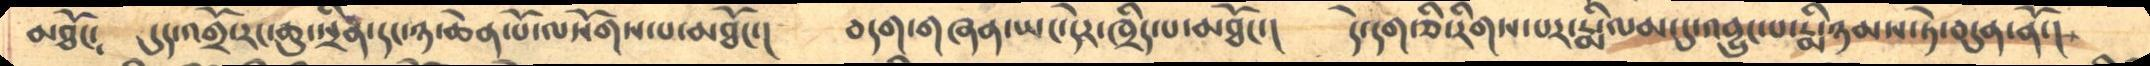མཐོང༴    དུད་འགྲོ་རང་ཆུ་སྲིན་དང་ཉ་ཆེན་པོ་ལསོགས་པ་མཐོང་།་   བདག་གཞན་ཡང་དེར་ཁྲིད་པ་མཐོང་།   དེ་དག་ཅི་རིགས་པར་རྨི་ལམ་དུ་འབྱུང་པ་རྨི་ཉམས་ཏེ་བདུན་ནོ་།
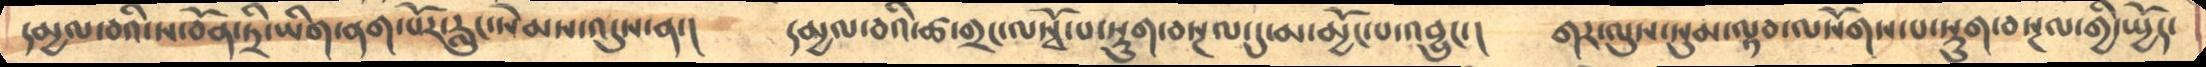དམྱལ་བའི་ས་བོན་ཏྲི་ཡིག་ནག་པོར་རླུང་སེམས་འདུས་ན་།    དམྱལ་བའི་ཚ་གྲང་ལསྭོ་པ་སྡུག་བསྔལ་དུ་མ་མྱོང་པ་འབྱུང་།   གར་ལུས་སུམ་ལྟབ་ལསོགས་པ་སྡུག་བསྔལ་གྱི་སྤྱོད་
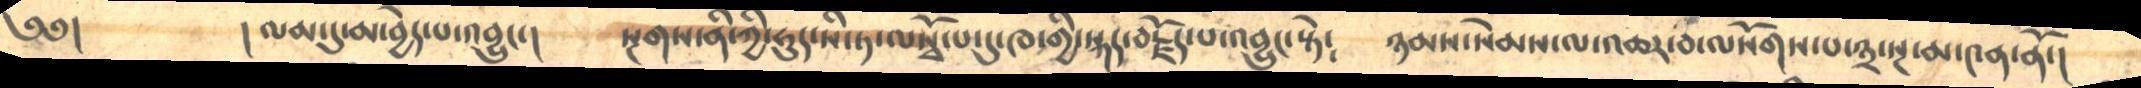༄༅།           ། ལམ་དུ་མ་བྱེད་པ་འབྱུང་།       སྔགས་ནི་ཀྱི་ཧུད་སི་ཏ་ལསྭོ་པ་དུ་ཁ་གྱི་སྐད་བརྗོད་པ་འབྱུང་སྟེ༴   ཉམས་སེམས་ལ་འཆར་བ་ལསོགས་པ་༣་སྔ་མ་༤ན་ནོ་།
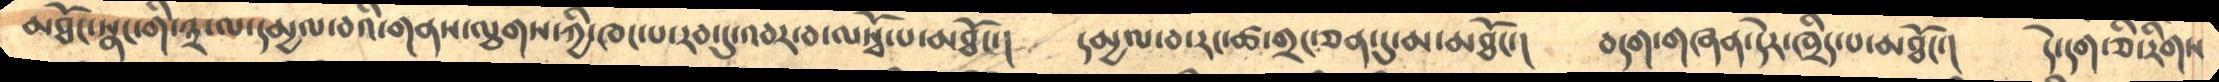མཐོང་སྣང་གི་༣་ལ་དམྱལ་བའི་གནས་ལྕགས་ཀྱི་ཁང་པ་རབ་དུ་འབར་བ་ལསྭོ་པ་མཐོང་།    དམྱལ་བ་རང་ཚ་གྲང་ཅན་དུ་མ་མཐོང་།  བདག་གཞན་དེར་ཁྲིད་པ་མཐོང་།  དེ་དག་ཅི་རིགས
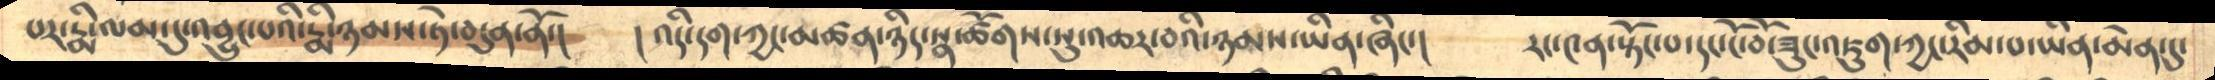པར་རྨི་ལམ་དུ་འབྱུང་པའི་རྨི་ཉམས་ཏེ་བདུན་ནོ་།    ། འདི་དག་ཀྱང་མཚན་ཉིད་སྣ་ཚོགས་སུ་འཆར་བའི་ཉམས་ཡིན་ཞིང་།    རང་༤ན་སྟོང་པ་དང་ངོ་བོ་ཟུང་འཇུག་ཀྱང་རིམ་པ་ཡིན་མེན་དུ་
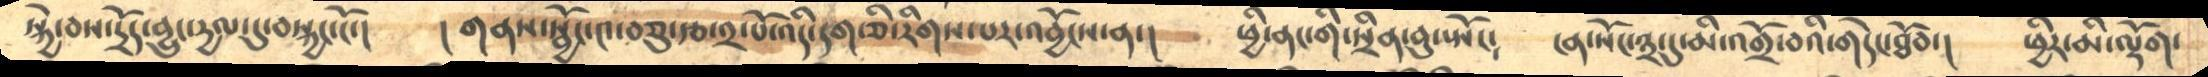སྐྱེ་བས་དྲོད་བྱུང་དྱལ་དུ་བསྐྱང་ངོ་།    ། གནས་སྦྱོང་༤་བཅུ་རྩ་༢་པོ་འདི་དག་ཅི་རིགས་པར་འབྱོངས་ན་།    ཕྱི་ནང་གི་སྲིན་བུ་སྤོང༴    ངན་སོང་༣་དུ་ནི་འགྲོ་བའི་གདེང་ཐོབ་།   ཕྱིར་མི་ལྡོག་
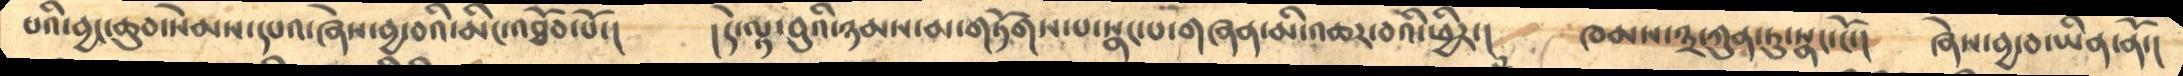པའི་བྱང་ཆུབ་སེམས་དཔའ་ཞེས་བྱ་བའི་མིང་འཐོབ་པོ་།     །དེ་ལྟ་བུའི་ཉམས་མ་གཏོགས་པ་སྣང་པ་གཞན་མི་འཆར་བའི་ཕྱིར་།    ཁམས་༣་ཀུན་ཏུ་སྣང་ངོ་།     ཞེས་བྱ་བ་ཡིན་ནོ་།
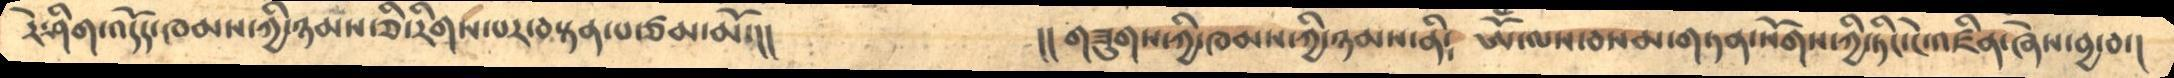རེ་ཤིག་འདོད་ཁམས་ཀྱི་ཉམས་ཅི་རིགས་པར་བསྟན་པ་ཙམ་མོ་།།             །། གཟུགས་ཀྱི་ཁམས་ཀྱི་ཉམས་ནི༴    ཨོྃ་ལས་བསམ་གཏན་སོགས་ཀྱི་ཏིང་ངེ་འཛིན་ཞེས་བྱ་བ་།
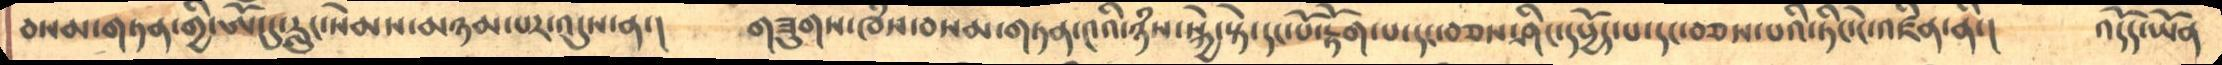བསམ་གཏན་གྱི་ཨོཾ་དུ་རླུང་སེམས་མཉམ་པར་འདུས་ན་།    གཟུགས་ཁྃས་བསམ་གཏན་༤འི་ཉཾས་སྐྱེ་སྟེ་དང་པོ་རྟོག་པ་དང་བཅས་ཤིང་དཔྱོད་པ་དང་བཅས་པའི་ཏིང་ངེ་འཛིན་ནི་།   འདོད་ཡོན
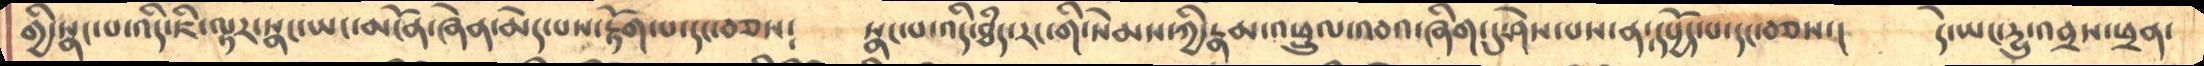ཀྱི་སྣང་པ་འདི་ཇི་ལྟར་སྣང་ཡང་མངོན་ཞེན་མེད་པས་རྟོག་པ་དང་བཅས༴    སྣང་པ་འདི་ཐྃད་རང་གི་སེམས་ཀྱི་རྣམ་འཕྲུལ་འབའ་ཞིག་དུ་ཤེས་པས་ན་དཔྱོད་པ་དང་བཅས་།   དེ་ཡང་དྱུ་འབྲས་ཕྲན་
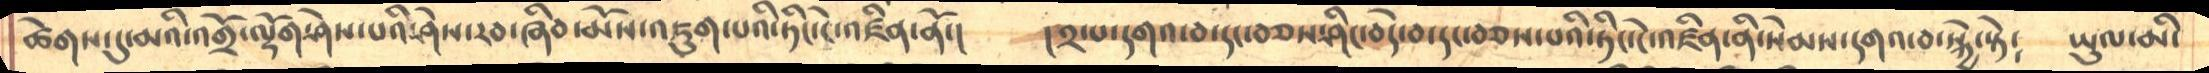ཚོགས་དུ་མའི་འགྲོ་ལྡོག་ཤེས་པའི་ཤེས་རབ་ཞིབ་མོས་འཇུག་པའི་ཏིང་ངེ་འཛིན་ནོ་།    །༢་པ་དགའ་བ་དང་བཅས་ཤིང་བདེ་བ་དང་བཅས་པའི་ཏིང་ངེ་འཛིན་ནི་སེམས་དགའ་བ་སྐྱེ་སྟེ༴    ཡུལ་མི་
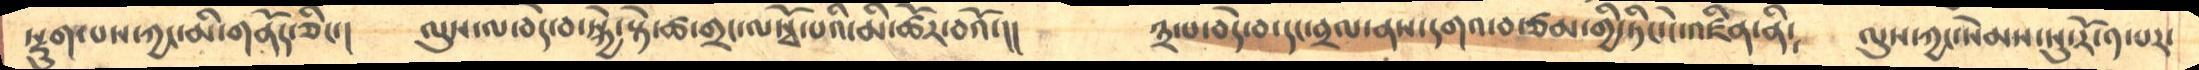སྡུག་པས་ཀྱང་མི་གནོད་ཅིང་།   ལུས་ལ་བདེ་བ་སྐྱེ་སྟེ་ཚ་གྲང་ལསྭོ་པའི་མི་ཚོར་བའོ་།།     ༣་པ་བདེ་བ་དང་བྲལ་ནས་དགའ་བ་ཙམ་གྱི་ཏིང་ངེ་འཛིན་ནི༴  ལུས་ཀྱང་སེམས་སུ་རོ་༡་པར་
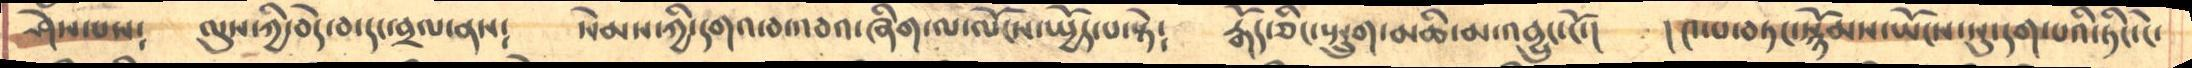ཤེས་པས༴    ལུས་ཀྱི་བདེ་བ་དང་བྲལ་ནས༴  སེམས་ཀྱི་དགའ་བ་འབའ་ཞིག་ལ་ལོངས་སྤྱོད་པ་སྟེ༴   རྒོད་ཅིང་སྤྲུག་མཆི་མ་འབྱུང་ངོ་།   །༤་པ་བཏང་སྙོམས་ཡོངས་སུ་དག་པའི་ཏིང་ངེ་
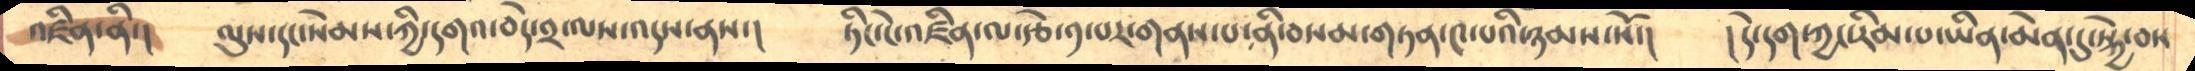འཛིན་ནི་།   ལུས་དང་སེམས་ཀྱི་དགའ་བདེ་༢་ལས་འདས་ནས་།    ཏིང་ངེ་འཛིན་ལ་རྩེ་༡་པར་གནས་པ་ནི་བསམ་གཏན་༤་པའི་ཉམས་སོ་།    །དེ་དག་ཀྱང་རིམ་པ་ཡིན་མེན་དུ་སྐྱེ་བས
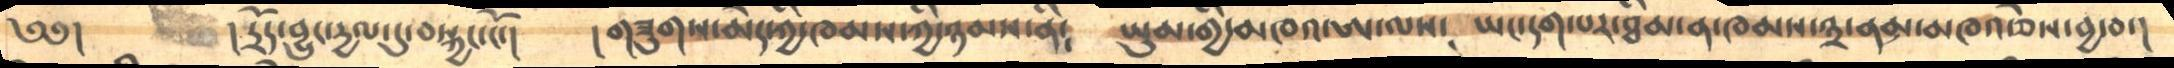༄༅།     ། དྲོད་བྱུང་དྱལ་དུ་བསྐྱང་ངོ་།   །གཟུགས་མེད་ཀྱི་ཁམས་ཀྱི་ཉམས་ནི༴   ཡུམ་གྱི་མཁའ་ཨ་ལས༴   ཡང་དག་པར་ཐིམ་ན་ཁམས་༣་ནམ་མཁའ་ཅེས་བྱ་བ་།
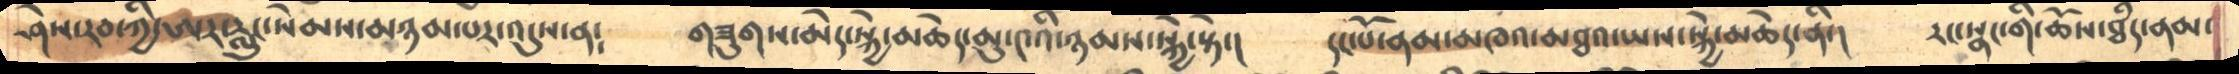ཤེས་རབ་ཀྱི་ཨར་རླུང་སེམས་མཉམ་པར་འདུས་ན༴    གཟུགས་མེད་སྐྱེ་མཆེད་མུ་༤འི་ཉམས་སྐྱེ་སྟེ་།    དང་པོ་ནམ་མཁའ་མཐའ་ཡས་སྐྱེ་མཆེད་ནི་།   རང་སྣང་གི་ཆོས་ཐཾད་ནམ་
